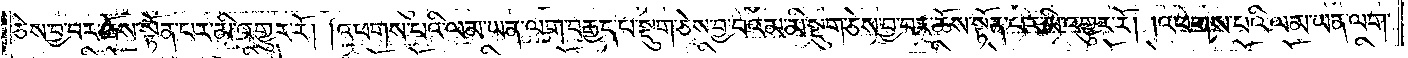ཅེས་བྱ་བར་ཆོས་སྟོན་པར་མི་འགྱུར་རོ། །འཕགས་པའི་ལམ་ཡན་ལག་བརྒྱད་པ་སྡུག་ཅེས་བྱ་བའམ་མི་སྡུག་ཅེས་བྱ་བར་ཆོས་སྟོན་པར་མི་འགྱུར་རོ། །འཕགས་པའི་ལམ་ཡན་ལག་
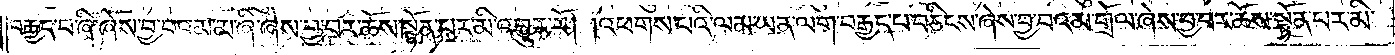བརྒྱད་པ་ཞི་ཞེས་བྱ་བའམ་མ་ཞི་ཞེས་བྱ་བར་ཆོས་སྟོན་པར་མི་འགྱུར་རོ། །འཕགས་པའི་ལམ་ཡན་ལག་བརྒྱད་པ་བཅིངས་ཞེས་བྱ་བའམ་གྲོལ་ཞེས་བྱ་བར་ཆོས་སྟོན་པར་མི་
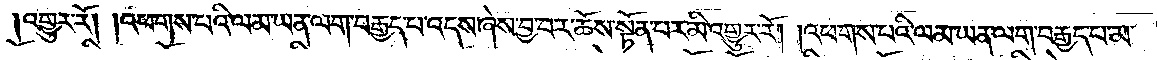འགྱུར་རོ། །འཕགས་པའི་ལམ་ཡན་ལག་བརྒྱད་པ་འདས་ཞེས་བྱ་བར་ཆོས་སྟོན་པར་མི་འགྱུར་རོ། །འཕགས་པའི་ལམ་ཡན་ལག་བརྒྱད་པ་མ་
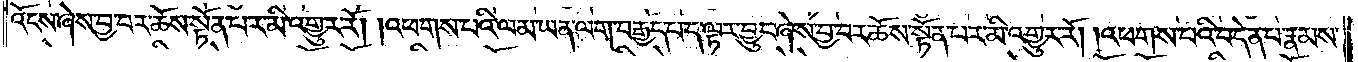འོངས་ཞེས་བྱ་བར་ཆོས་སྟོན་པར་མི་འགྱུར་རོ། །འཕགས་པའི་ལམ་ཡན་ལག་བརྒྱད་པ་ད་ལྟར་བྱུང་ཞེས་བྱ་བར་ཆོས་སྟོན་པར་མི་འགྱུར་རོ། །འཕགས་པའི་བདེན་པ་རྣམས་
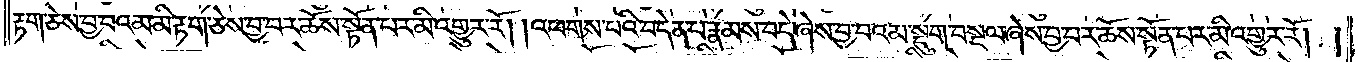རྟག་ཅེས་བྱ་བའམ་མི་རྟག་ཅེས་བྱ་བར་ཆོས་སྟོན་པར་མི་འགྱུར་རོ། །འཕགས་པའི་བདེན་པ་རྣམས་བདེ་ཞེས་བྱ་བའམ་སྡུག་བསྔལ་ཞེས་བྱ་བར་ཆོས་སྟོན་པར་མི་འགྱུར་རོ། །
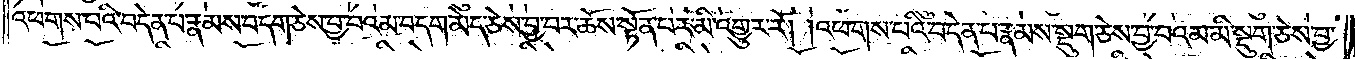འཕགས་པའི་བདེན་པ་རྣམས་བདག་ཅེས་བྱ་བའམ་བདག་མེད་ཅེས་བྱ་བར་ཆོས་སྟོན་པར་མི་འགྱུར་རོ། །འཕགས་པའི་བདེན་པ་རྣམས་སྡུག་ཅེས་བྱ་བའམ་མི་སྡུག་ཅེས་བྱ་
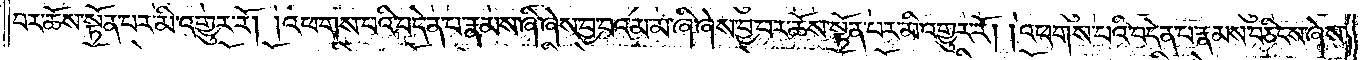བར་ཆོས་སྟོན་པར་མི་འགྱུར་རོ། །འཕགས་པའི་བདེན་པ་རྣམས་ཞི་ཞེས་བྱ་བའམ་མ་ཞི་ཞེས་བྱ་བར་ཆོས་སྟོན་པར་མི་འགྱུར་རོ། །འཕགས་པའི་བདེན་པ་རྣམས་བཅིངས་ཞེས་
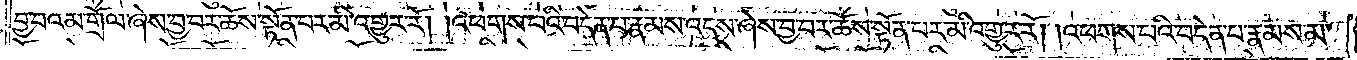བྱ་བའམ་གྲོལ་ཞེས་བྱ་བར་ཆོས་སྟོན་པར་མི་འགྱུར་རོ། །འཕགས་པའི་བདེན་པ་རྣམས་འདས་ཞེས་བྱ་བར་ཆོས་སྟོན་པར་མི་འགྱུར་རོ། །འཕགས་པའི་བདེན་པ་རྣམས་མ་
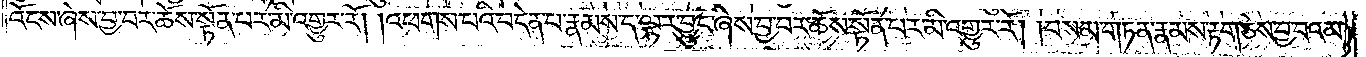འོངས་ཞེས་བྱ་བར་ཆོས་སྟོན་པར་མི་འགྱུར་རོ། །འཕགས་པའི་བདེན་པ་རྣམས་ད་ལྟར་བྱུང་ཞེས་བྱ་བར་ཆོས་སྟོན་པར་མི་འགྱུར་རོ། །བསམ་གཏན་རྣམས་རྟག་ཅེས་བྱ་བའམ་
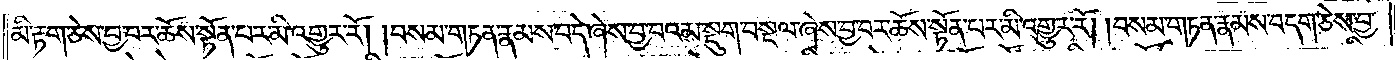མི་རྟག་ཅེས་བྱ་བར་ཆོས་སྟོན་པར་མི་འགྱུར་རོ། །བསམ་གཏན་རྣམས་བདེ་ཞེས་བྱ་བའམ་སྡུག་བསྔལ་ཞེས་བྱ་བར་ཆོས་སྟོན་པར་མི་འགྱུར་རོ། །བསམ་གཏན་རྣམས་བདག་ཅེས་བྱ་
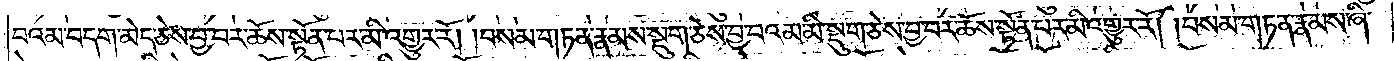བའམ་བདག་མེད་ཅེས་བྱ་བར་ཆོས་སྟོན་པར་མི་འགྱུར་རོ། །བསམ་གཏན་རྣམས་སྡུག་ཅེས་བྱ་བའམ་མི་སྡུག་ཅེས་བྱ་བར་ཆོས་སྟོན་པར་མི་འགྱུར་རོ། །བསམ་གཏན་རྣམས་ཞི་
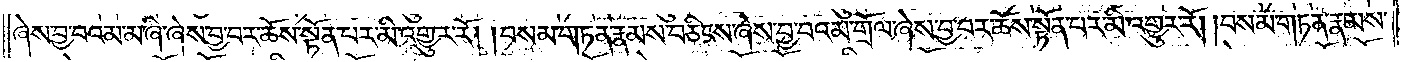ཞེས་བྱ་བའམ་མ་ཞི་ཞེས་བྱ་བར་ཆོས་སྟོན་པར་མི་འགྱུར་རོ། །བསམ་གཏན་རྣམས་བཅིངས་ཞེས་བྱ་བའམ་གྲོལ་ཞེས་བྱ་བར་ཆོས་སྟོན་པར་མི་འགྱུར་རོ། །བསམ་གཏན་རྣམས་
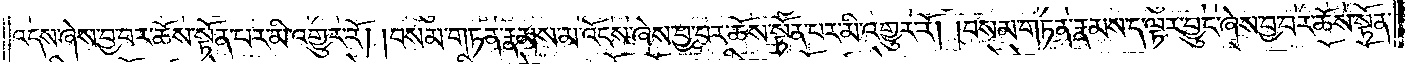འདས་ཞེས་བྱ་བར་ཆོས་སྟོན་པར་མི་འགྱུར་རོ། །བསམ་གཏན་རྣམས་མ་འོངས་ཞེས་བྱ་བར་ཆོས་སྟོན་པར་མི་འགྱུར་རོ། །བསམ་གཏན་རྣམས་ད་ལྟར་བྱུང་ཞེས་བྱ་བར་ཆོས་སྟོན་
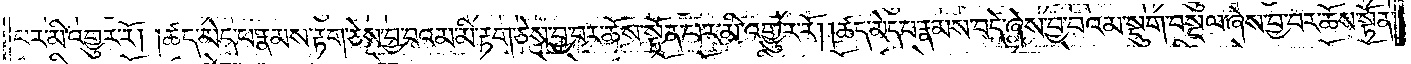པར་མི་འགྱུར་རོ། །ཚད་མེད་པ་རྣམས་རྟག་ཅེས་བྱ་བའམ་མི་རྟག་ཅེས་བྱ་བར་ཆོས་སྟོན་པར་མི་འགྱུར་རོ། །ཚད་མེད་པ་རྣམས་བདེ་ཞེས་བྱ་བའམ་སྡུག་བསྔལ་ཞེས་བྱ་བར་ཆོས་སྟོན་
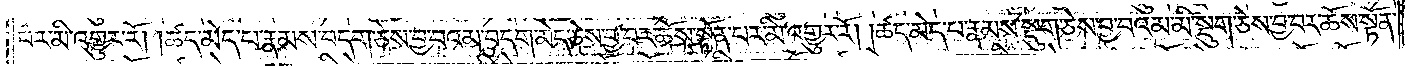པར་མི་འགྱུར་རོ། །ཚད་མེད་པ་རྣམས་བདག་ཅེས་བྱ་བའམ་བདག་མེད་ཅེས་བྱ་བར་ཆོས་སྟོན་པར་མི་འགྱུར་རོ། །ཚད་མེད་པ་རྣམས་སྡུག་ཅེས་བྱ་བའམ་མི་སྡུག་ཅེས་བྱ་བར་ཆོས་སྟོན་
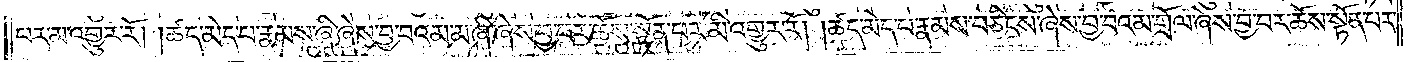པར་མི་འགྱུར་རོ། །ཚད་མེད་པ་རྣམས་ཞི་ཞེས་བྱ་བའམ་མ་ཞི་ཞེས་བྱ་བར་ཆོས་སྟོན་པར་མི་འགྱུར་རོ། །ཚད་མེད་པ་རྣམས་བཅིངས་ཞེས་བྱ་བའམ་གྲོལ་ཞེས་བྱ་བར་ཆོས་སྟོན་པར་
